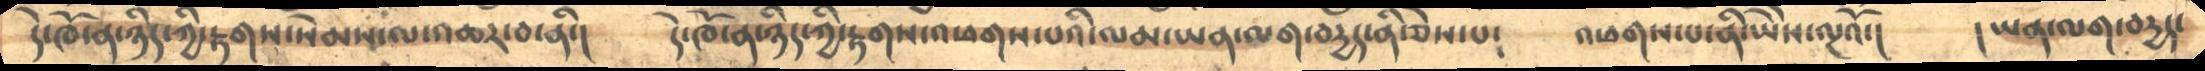དེ་ཁོ་ན་ཉིད་ཀྱི་རྟགས་སེམས་ལ་འཆར་བ་ནི་།   དེ་ཁོ་ན་ཉིད་ཀྱི་རྟགས་འཕགས་པའི་ལམ་ཡན་ལག་བདྱད་ནི་ཅེས་པ༴    འཕགས་པ་ནི་ཡཻས་ལྔའོ་།    ། ཡན་ལག་བདྱད་
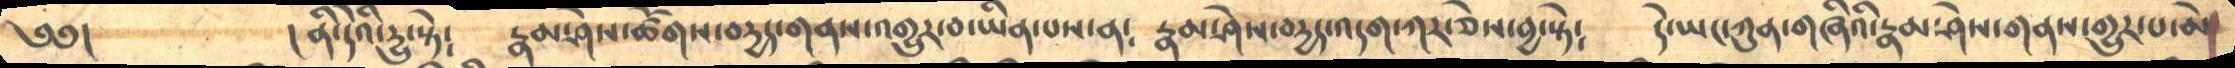༄༅།       །ནི་དེའི་དྱུ་སྟེ༴    རྣམ་ཤེས་ཚོགས་བདྱད་གནས་འགྱུར་བ་ཡིན་པས་ན༴   རྣམ་ཤེས་བདྱད་འདག་ཀར་ཅེས་བྱ་སྟེ༴    དེ་ཡང་ཀུན་གཞིའི་རྣམ་ཤེས་གནས་གྱུར་པ་མེ་
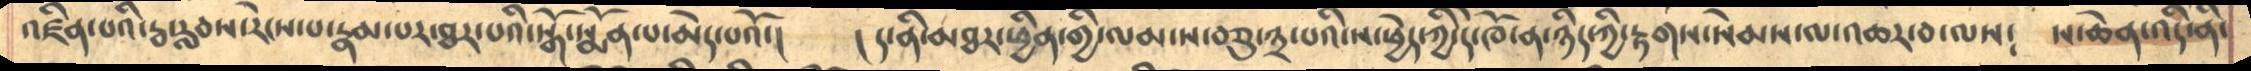འཛིན་པའི་རྦ་རླབས་རེངས་པ་རྣམ་པར་ཐར་པའི་སྒོ་སྨོན་པ་མེད་པའོ་།   ། ད་ནི་མཐར་ཕྱིན་གྱི་ལམ་ས་བཅུ་༣་པའི་ས་ཕྱེད་ཀྱི་དེ་ཁོ་ན་ཉིད་ཀྱི་རྟགས་སེམས་ལ་འཆར་བ་ལས༴  ས་ཆེན་འདི་ནི་
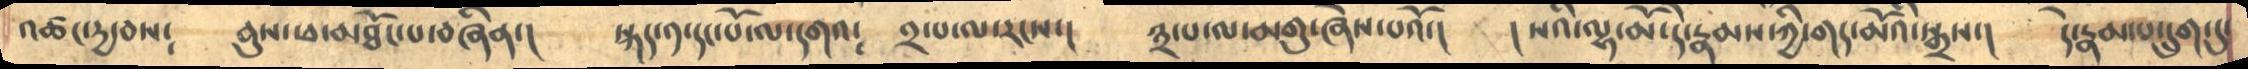འཚང་དྱ་བས༴    ནུས་ཕ་མཐོང་པ་བཞིན་།   སྐད་༡་དང་པོ་ལ་དགའ༴   ༢་པ་ལ་རངས་།   ༣་པ་ལ་མགུ་ཞེས་པའོ་།   ། སའི་ལྷ་མོ་དེ་རྣམས་ཀྱི་གད་མོའི་སྒྲས་།   དེ་རྣམ་པ་དྲུག་དུ་
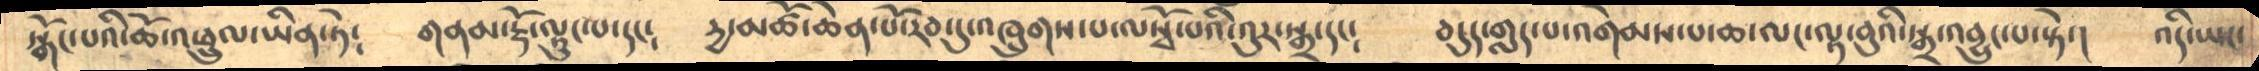སྒོང་པའི་ཆོ་འཕྲུལ་ཡིན་ཏེ༴    གནམ་རྡོ་ལྟུང་པ་དང༴  དྱ་མཚོ་ཆེན་པོ་རབ་དུ་འཁྲུགས་པ་ལསྭོ་པའི་འུར་སྒྲ་དང༴   བདུད་གླད་པ་འགེམས་པ་ཆ་ལང་ལྟ་བུའི་སྒྲ་འབྱུང་པ་སྟེ་།   འདི་ཡང་
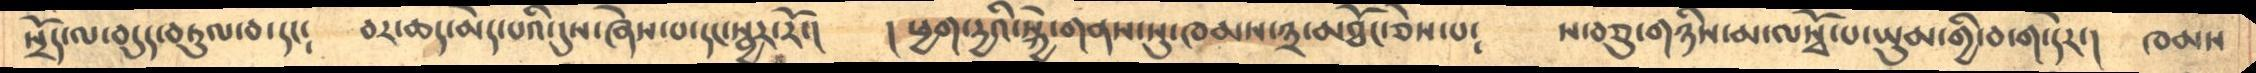སྲོད་ལ་བདུད་བཏུལ་བ་དང༴    བར་ཆད་མེད་པའི་དུས་ཞེས་པ་དང་སྦྱར་རོ་།   ། ཕྱག་དྱའི་སྐྱེ་གནས་སུ་ཁམས་༣་མཐོང་ཅེས་པ༴   ས་བཅུ་གཉིས་མ་ལསྭོ་པ་ཡུམ་གྱི་བ་ག་དེར་།  ཁམས
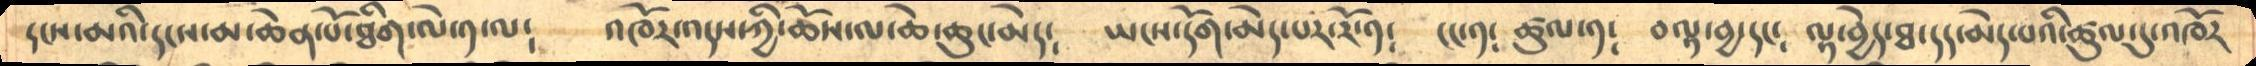དངས་མའི་དངས་མ་ཆེན་པོ་ཐིག་ལེ་༡་ལ༴    འཁོར་འདས་ཀྱི་ཆོས་ལ་ཆེ་ཆུང་མེད༴   ཡངས་དོག་མེད་པར་རོ་༡༴   ངང་༡༴  ཚུལ་༡༴  བལྟ་བྱ་དང༴  ལྟ་བྱེད་ཐ་དད་མེད་པའི་ཚུལ་དུ་འཁོར
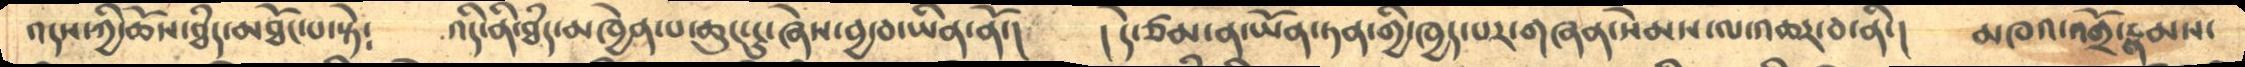འདས་ཀྱི་ཆོས་ཐཾད་མཐོང་པ་སྟེ༴   འདི་ནི་ཐཾད་མཁྱེན་པ་ཆུང་ངུ་ཞེས་བྱ་བ་ཡིན་ནོ་།   ། དེ་ཙམ་ན་ཡོན་ཏན་གྱི་ཁྱད་པར་གཞན་སེམས་ལ་འཆར་བ་ནི་།   མཁའ་འགྲོ་རྣམས་
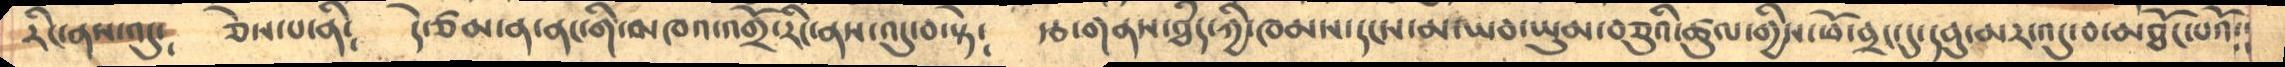རིང་ནས་འདུ༴    ཅེས་པ་ནི༴   དེ་ཙམ་ན་ནང་གི་མཁའ་འགྲོ་རིང་ནས་འདུ་བ་སྟེ༴   རྩ་གནས་ཐཾད་ཀྱི་ཁམས་དངས་མ་ཡབ་ཡུམ་བཅུའི་ཚུལ་གྱིས་ཕོ་བྲང་དུ་དབུ་མར་འདུ་བ་མཐོང་པའོ༴༴
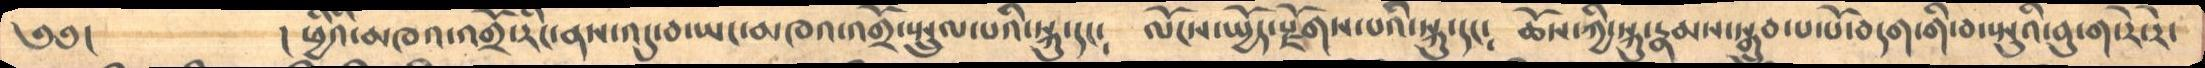༄༅།         ། ཕྱིའི་མཁའ་འགྲོ་རིང་ནས་འདུ་བ་ཡང་མཁའ་འགྲོ་སྤྲུལ་པའི་སྐུ་དང༴  ལོངས་སྤྱོད་རྫོགས་པའི་སྐུ་དང༴  ཆོས་ཀྱི་སྐུ་རྣམས་སྒྲུབ་པ་པོ་བདག་གི་བ་སྤུའི་བུ་ག་རེ་རེ་
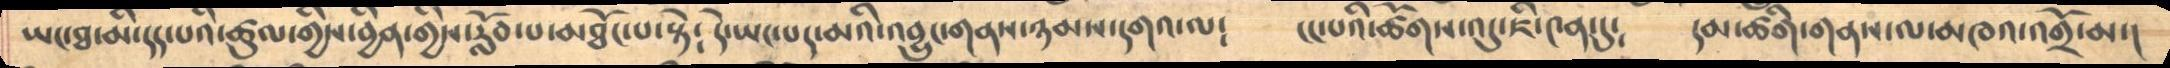ཡང་ཐ་མི་དད་པའི་ཚུལ་གྱིས་བྱིན་གྱིས་རློབ་པ་མཐོང་པ་སྟེ༴  དེ་ཡང་པད་མའི་འབྱུང་གནས་ཉམས་དགའ་ལ༴   ངང་པའི་ཚོགས་འདུ་ཇི་༤ན་དུ༴  དམ་ཚིག་གནས་ལ་མཁའ་འགྲོ་མ་།
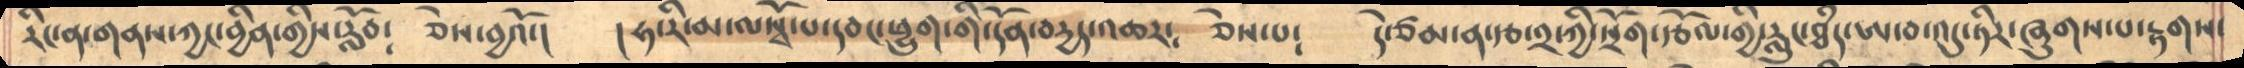རིང་ན་གནས་ཀྱང་བྱིན་གྱིས་རློབ༴    ཅེས་བྱའོ་།   །ཧ་རི་མ་ལསྭོ་པ་དབང་ཕྱུག་གི་དོན་བདྱད་འཆར༴   ཅེས་པ༴   དེ་ཙམ་ན་རྩ་༢་ཀྱི་སྲོག་རྩོལ་གྱི་རླུང་ཐཾད་ཨ་བ་འདུ་ཏིར་ཞུགས་པ་རྟགས་
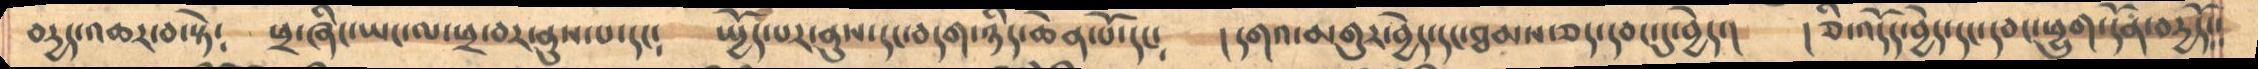བདྱད་འཆར་བ་སྟེ༴     ཕྲ་ཞིང་ཡང་ལ་ཕྲ་བར་ནུས་པ་དང༴     སྤྱོད་པར་ནུས་དང་བདག་ཉིད་ཆེན་པོ་དང༴   །དགའ་མགུར་བྱེད་དང་ཐམས་ཅད་དབང་དུ་བྱེད་།   །ཅི་འདོད་བྱེད་དང་དབང་ཕྱུག་དོན་བདྱདོ༴༴
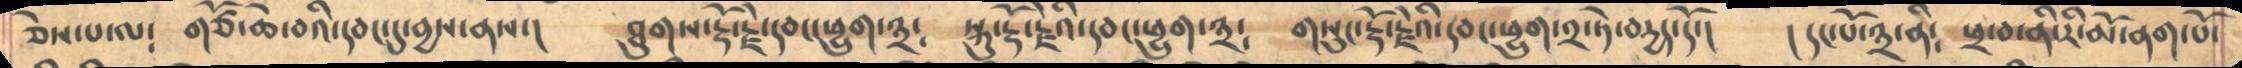ཅེས་པ་ལ༴    གཙོ་ཆེ་བའི་དབང་དུ་བྱས་ནས་།   ཐུགས་རྡོ་རྗེ་དབང་ཕྱུག་༣༴    སྐུ་རྡོ་རྗེ་དབང་ཕྱུག་༣༴    གསུང་རྡོ་རྗེའི་དབང་ཕྱུག་༢་ཏེ་བདྱད་དོ་།   ། དང་པོ་༣་ནི༴  ཕྲ་བ་ནི་རི་མོ་ནག་པོ་
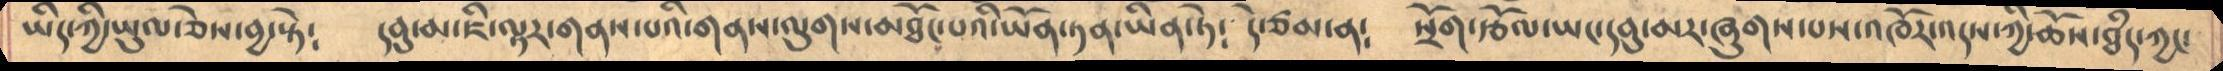ཡིད་ཀྱི་ཡུལ་ཅེས་བྱ་སྟེ༴     དབུ་མ་ཇི་ལྟར་གནས་པའི་གནས་ལུགས་མཐོང་པའི་ཡོན་ཏན་ཡིན་ཏེ༴  དེ་ཙམ་ན༴  སྲོག་རྩོལ་ཡང་དབུ་མར་ཞུགས་པས་འཁོར་འདས་ཀྱི་ཆོས་ཐཾད་ཀྱང་
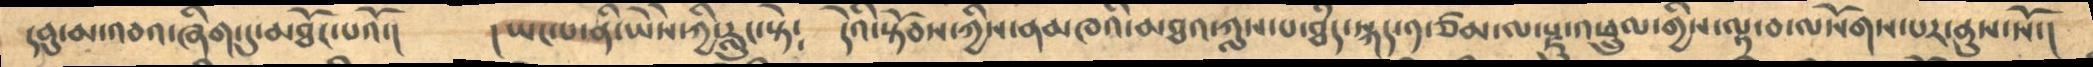དབུ་མ་འབའ་ཞིག་དུ་མཐོང་པའོ་།    །ཡང་པ་ནི་ཡཻས་ཀྱི་རླུང་སྟེ༴  དེའི་སྟོབས་ཀྱིས་ནམཁའི་མཐའ་ཀླས་པ་ཐཾད་སྐད་༡་ཙམ་ལ་རྫུ་འཕྲུལ་གྱིས་ལྟ་བ་ལསོགས་པར་ནུས་སོ་།
